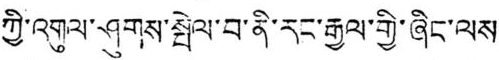ཀྱི་འགུལ་ཤུགས་སྤེལ་བ་ནི་རང་རྒྱལ་གྱི་ཞིང་ལས
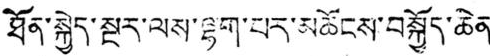ཐོན་སྐྱེད་སྔར་ལས་ལྷག་པར་མཆོངས་བསྐྱོད་ཆེན་
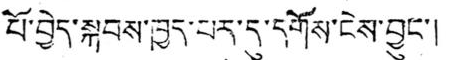པོ་བྱེད་སྐབས་ཁྱད་པར་དུ་དགོས་ངེས་བྱུང་།
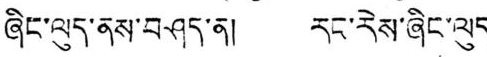ཞིང་ལུད་ནས་བཤད་ན། རང་རེས་ཞིང་ལུད་
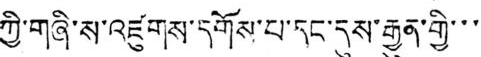ཀྱི་གཞི་ས་འཛུགས་དགོས་པ་དང་དུས་རྒྱུན་གྱི་་་་
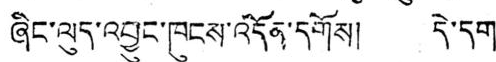ཞིང་ལུད་འབྱུང་ཁུངས་འདོན་དགོས། དེ་དག་
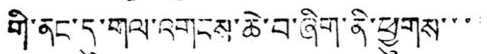གི་ནང་དུ་གལ་འགངས་ཆེ་བ་ཞིག་ནི་ཕྱུགས་་་་་
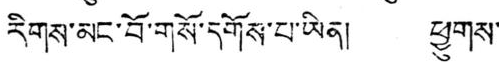རིགས་མང་བོ་གསོ་དགོས་པ་ཡིན། ཕྱུགས་
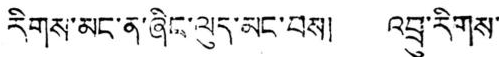རིགས་མང་ན་ཞིང་ལུད་མང་བས། འབྲུ་རིགས་
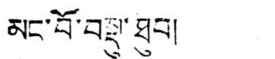མང་བོ་བསྡུ་ཐུབ།
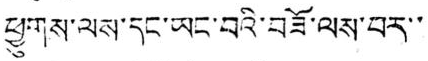ཕྱུགས་ལས་དང་ཡང་བའི་བཟོ་ལས་བར་་
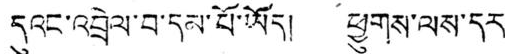དུའང་འབྲེལ་བ་དམ་པོ་ཡོད། ཕྱུགས་ལས་དར
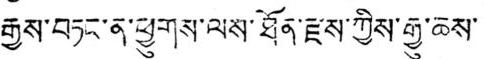རྒྱས་བཏང་ན་ཕྱུགས་ལས་ཐོན་རྫས་ཀྱིས་རྒྱུ་ཆས་་
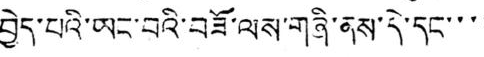བྱེད་པའི་ཡང་བའི་བཟོ་ལས་གཞི་ནས་དེ་དང་་་་
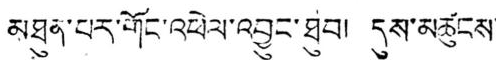མཐུན་པར་གོང་འཕེལ་འབྱུང་ཐུབ། དུས་མཚུངས་
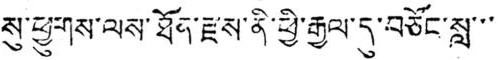སུ་ཕྱུགས་ལས་ཐོན་རྫས་ནི་ཕྱི་རྒྱལ་དུ་བཙོང་སླ་་་
